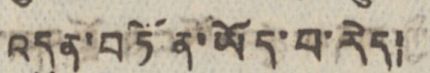འདུན་བཏོན་ཡོད་པ་རེད།
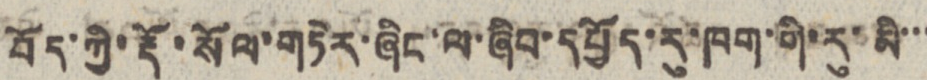བོད་ཀྱི་རྡོ་སོལ་གཏེར་ཞིང་ལ་ཞིབ་དཔྱོད་རུ་ཁག་གི་རུ་མི་་་
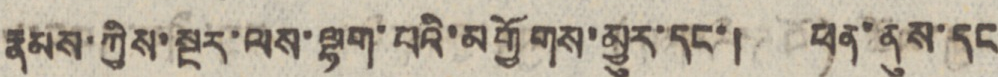རྣམས་ཀྱིས་སྔར་ལས་ལྷག་པའི་མགྱོགས་མྱུར་དང་། ཕན་ནུས་དང
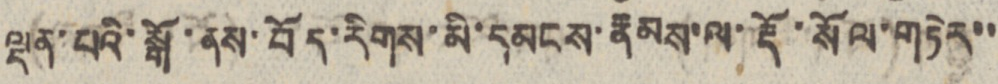ལྡན་པའི་སྒོ་ནས་བོད་རིགས་མི་དམངས་རྣམས་རྡོ་སོལ་གཏེར་་
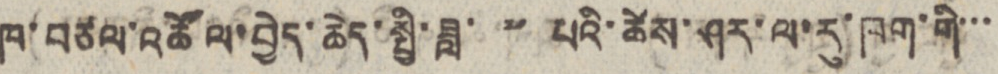ཁ་བཙལ་འཚོལ་བྱེད་ཆེད་སྤྱི་ཟླ་ ༧ པའི་ཚེས་ཤར་ལ་རུ་ཁག་གི་་་
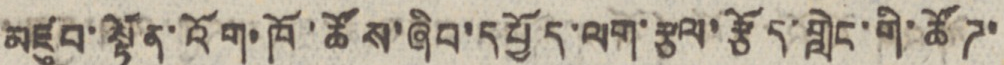མཛུབ་སྟོན་འོག་ཁོ་ཚོས་ཞིབ་དཔྱོད་ལག་རྩལ་རྩོད་གླེང་གི་ཚོཊ་
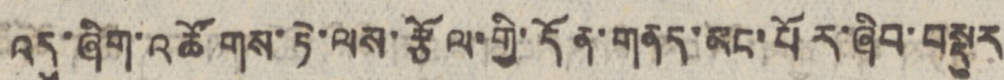འདུ་ཞིག་འཚོགས་ཏེ་ལས་རྩོལ་གྱི་དོན་གནད་མང་པོར་ཞིབ་བསྡུར
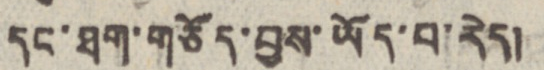དང་ཐག་གཅོད་བྱས་ཡོད་པ་རེད།
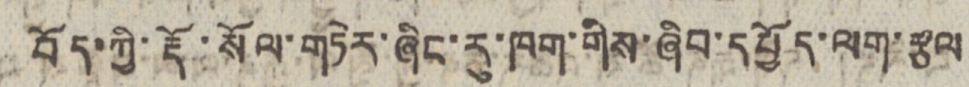བོད་ཀྱི་རྡོ་སོལ་གཏེར་ཞིང་ཏུ་ཁག་གིས་ཞིབ་དཔྱོད་ལག་རྩལ
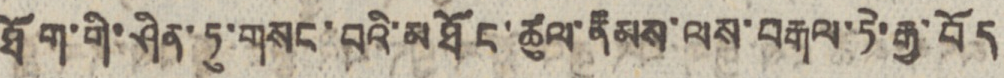ཐོག་གི་ཤིན་ཏུ་གསང་བའི་མཐོང་ཚུལ་རྣམས་ལས་བརྒལ་ཏེ་རྒྱ་བོད
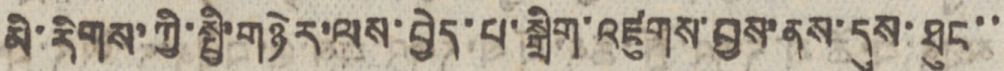མི་རིགས་ཀྱི་སྤྱི་གཉེར་ལས་བྱེད་པ་སྒྲིག་འཛུགས་བྱས་ནས་དུས་ཐུང་་
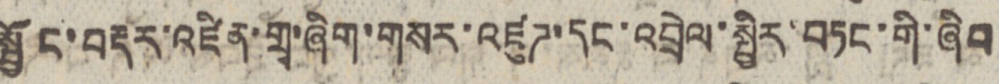སྦྱོང་བརྡར་འཛིན་གྲྭ་ཞིག་གསར་འཛུཊ་དང་འབྲེལ་སྤྱིར་བཏང་གི་ཞིབ
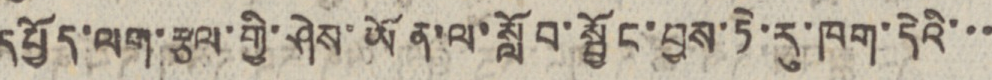དཔྱོད་ལག་རྩལ་གྱི་ཤེས་ཡོན་ལ་སློབ་སྦྱོང་བྱས་ཏེ་རུ་ཁག་དེའི་་་
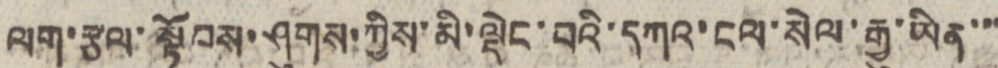ལག་རྩལ་སྟོབས་ཤུགས་ཀྱིས་མི་ལྡེང་བའི་དཀའ་ངལ་སེལ་རྒྱུ་ཡིན་་་
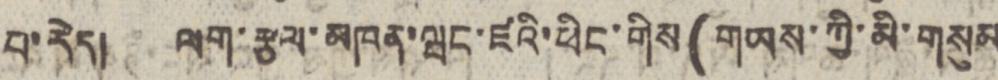པ་རེད། ལག་རྩལ་མཁན་ཝང་ཛའི་ཕིང་གིས(གཡས་ཀྱི་མི་གསུམ
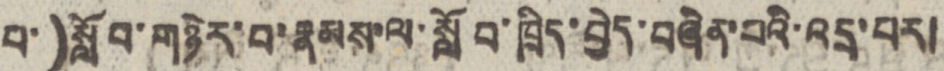པ་)སློབ་གཉེར་བ་རྣམས་ལ་སློབ་ཁྲིད་བྱེད་བཞིན་པའི་འདྲ་པར།
